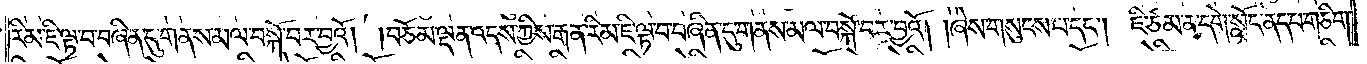རིམ་ཇི་ལྟ་བ་བཞིན་དུ་གནས་མལ་བསྐོ་བར་བྱའོ། །བཅོམ་ལྡན་འདས་ཀྱིས་རྒན་རིམ་ཇི་ལྟ་བ་བཞིན་དུ་གནས་མལ་བསྐོ་བར་བྱའོ། །ཞེས་གསུངས་པ་དང༌། ཇི་ཙམ་ན་དགེ་སློང་ནད་པ་གཅིག་
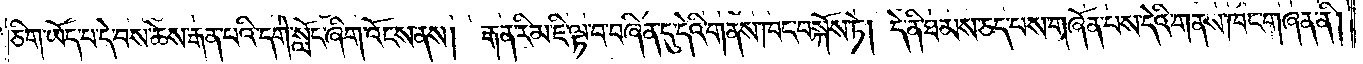ཅིག་ཡོད་པ་དེ་བས་ཆེས་རྒན་པའི་དགེ་སློང་ཞིག་འོངས་ནས། རྒན་རིམ་ཇི་ལྟ་བ་བཞིན་དུ་དེའི་གནས་ཁང་བསྐོས་ཏེ། དེ་ནི་ཐམས་ཅད་པས་གཞོན་པས་དེའི་གནས་ཁང་གཞན་ནི།
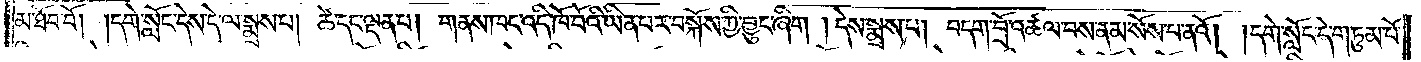མ་ཐོབ་བོ། །དགེ་སློང་དེས་དེ་ལ་སྨྲས་པ། ཚེ་དང་ལྡན་པ། གནས་ཁང་འདི་ཁོ་བོའི་ཡིན་པར་བསྐོས་ཀྱི་བྱུང་ཞིག །དེས་སྨྲས་པ། བདག་བྲོ་འཚལ་བས་ནམ་སོས་པ་ནའོ། །དགེ་སློང་དེ་གཏུམ་པོ་
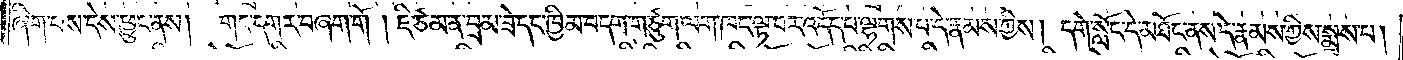ཞིག་པས་དེས་ཕྱུང་ནས། གང་དགར་བཞག་གོ །ཇི་ཙམ་ན་བྲམ་ཟེ་དང་ཁྱིམ་བདག་གཙུག་ལག་ཁང་ལྟ་བར་འདོད་པ་ལྷགས་པ་དེ་རྣམས་ཀྱིས། དགེ་སློང་དེ་མཐོང་ནས་དེ་རྣམས་ཀྱིས་སྨྲས་པ།
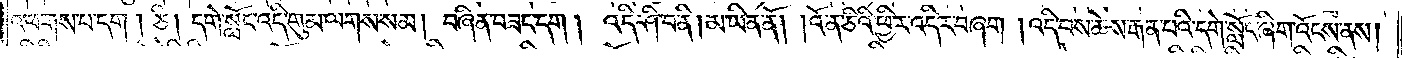འཕགས་པ་དག །ཅི། དགེ་སློང་འདི་གུམ་ལགས་སམ། བཞིན་བཟང་དག །འདི་ཤི་བ་ནི། མ་ཡིན་ནོ། །འོ་ན་ཅིའི་ཕྱིར་འདིར་བཞག །འདི་བས་ཆེས་རྒན་པའི་དགེ་སློང་ཞིག་འོངས་ནས།
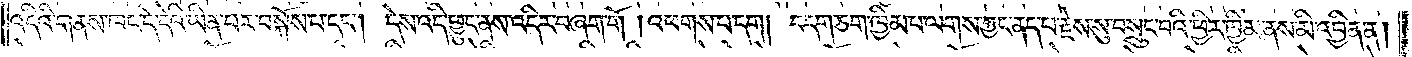འདིའི་གནས་ཁང་དེ་དེའི་ཡིན་པར་བསྐོས་པ་དང༌། དེས་འདི་ཕྱུང་ནས་འདིར་བཞག་གོ །འཕགས་པ་དག །བདག་ཅག་ཁྱིམ་པ་ལགས་ཀྱང་ནད་པ་རྗེས་སུ་བསྲུང་བའི་ཕྱིར་ཁྱིམ་ནས་མི་འབྱིན་ན།
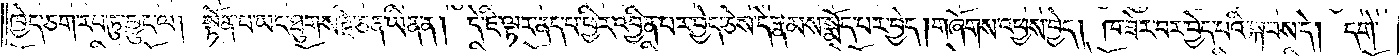ཁྱེད་ཅག་རབ་ཏུ་བྱུང་ལ། སྟོན་པ་ཡང་ཐུགས་རྗེ་ཅན་ཡིན་ན། དེ་ཇི་ལྟར་ནད་པ་ཕྱིར་འབྱིན་པར་བྱེད་ཅེས་དེ་རྣམས་སྨོད་པར་བྱེད། གཞོགས་འཕྱས་བྱེད། ཁ་ཟེར་བར་བྱེད་པའི་སྐབས་དེ། དགེ་
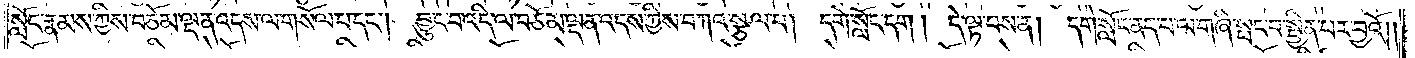སློང་རྣམས་ཀྱིས་བཅོམ་ལྡན་འདས་ལ་གསོལ་པ་དང༌། བྱུང་བ་འདི་ལ་བཅོམ་ལྡན་འདས་ཀྱིས་བཀའ་སྩལ་པ། དགེ་སློང་དག །དེ་ལྟ་བས་ན། དགེ་སློང་ནད་པ་ལ་གཞི་སྤང་བ་སྦྱིན་པར་བྱའོ༎
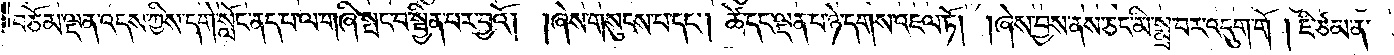བཅོམ་ལྡན་འདས་ཀྱིས་དགེ་སློང་ནད་པ་ལ་གཞི་སྤང་བ་སྦྱིན་པར་བྱའོ། །ཞེས་གསུངས་པ་དང༌། ཚེ་དང་ལྡན་པ་ཉེ་དགས་འཇལ་ཏོ། །ཞེས་བྱས་ནས་ཅང་མི་སྨྲ་བར་འདུག་གོ །ཇི་ཙམ་ན་
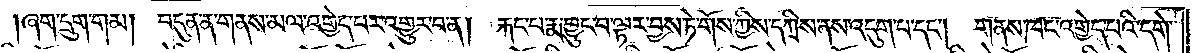ཞག་དྲུག་གམ། བདུན་ན་གནས་མལ་འགྱེད་པར་འགྱུར་བ་ན། རྐང་པ་རྨ་བྱུང་བ་ལྟར་བྱས་ཏེ་གོས་ཀྱིས་དཀྲིས་ནས་འདུག་པ་དང༌། གནས་ཁང་འགྱེད་པའི་དགེ་
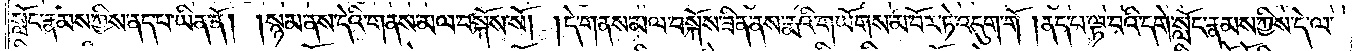སློང་རྣམས་ཀྱིས་ནད་པ་ཡིན་ནོ། །སྙམ་ནས་དེའི་གནས་མལ་བསྐོས་སོ། །དེ་གནས་མལ་བསྐོས་ཟིན་ནས་རྨའི་གཡོགས་མ་བོར་ཏེ་འདུག་གོ །ནད་པ་ལྟ་བའི་དགེ་སློང་རྣམས་ཀྱིས་དེ་ལ་
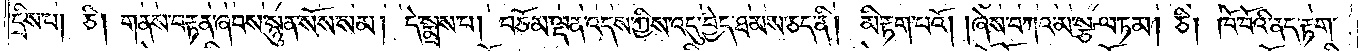དྲིས་པ། ཅི། གནས་བརྟན་ཞབས་སྙུན་སོས་སམ། དེ་སྨྲས་པ། བཅོམ་ལྡན་འདས་ཀྱིས་འདུ་བྱེད་ཐམས་ཅད་ནི། མི་རྟག་པའོ། །ཞེས་བཀའ་མ་སྩལ་ཏམ། ཅི། ཁོ་བོའི་ནད་རྟག་
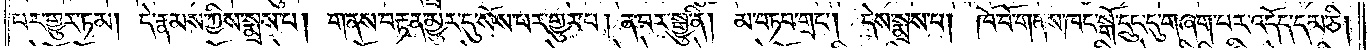པར་གྱུར་ཏམ། དེ་རྣམས་ཀྱིས་སྨྲས་པ། གནས་བརྟན་མྱུར་དུ་སོས་པར་གྱུར་པ། ན་བར་སྒྱུ་ནི། མ་བཏབ་གྲང༌། དེས་སྨྲས་པ། ཁོ་བོ་གནས་ཁང་སྒོ་དྲུང་དུ་གཞག་པར་འདོད་དམ་ཅི།
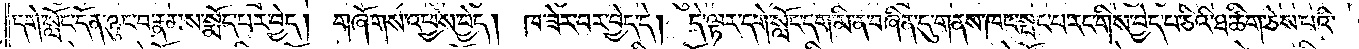དགེ་སློང་དོན་ཉུང་བ་རྣམས་སྨོད་པར་བྱེད། གཞོགས་འཕྱས་བྱེད། ཁ་ཟེར་བར་བྱེད་དེ། དེ་ལྟར་དགེ་སློང་དག་མི་ན་བཞིན་དུ་གནས་ཁང་སྤང་པ་རང་གིས་བྱེད་པ་ཅིའི་ཐ་ཚིག་ཅེས་པའི་
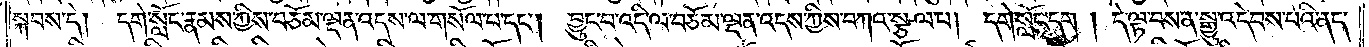སྐབས་དེ། དགེ་སློང་རྣམས་ཀྱིས་བཅོམ་ལྡན་འདས་ལ་གསོལ་པ་དང༌། བྱུང་བ་འདི་ལ་བཅོམ་ལྡན་འདས་ཀྱིས་བཀའ་སྩལ་པ། དགེ་སློང་དག །དེ་ལྟ་བས་ན་སྒྱུ་འདེབས་པའི་ནད་
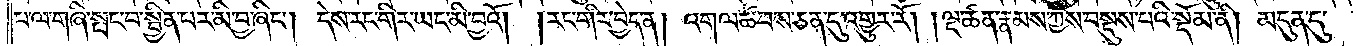པ་ལ་གཞི་སྤང་བ་སྦྱིན་པར་མི་བྱ་ཞིང༌། དེས་རང་གིར་ཡང་མི་བྱའོ། །རང་གིར་བྱེད་ན། འགལ་ཚབས་ཅན་དུ་འགྱུར་རོ། །ལྔ་ཚན་རྣམས་ཀྱིས་བསྡུས་པའི་སྡོམ་ནི། མདུན་དུ་
